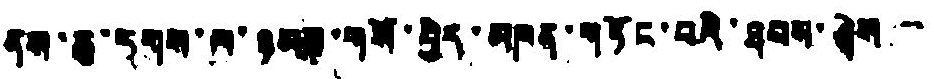ནས་ཆུ་ཏགས་ལ་ཉམས་གསོ་བྱེད་མཁན་གཏོང་བའི་ཐབས་ཤེས་་་
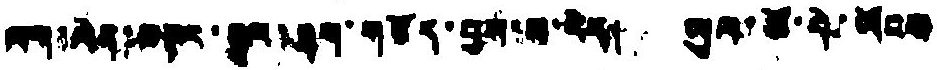ལག་ལེན་བསྟར་སྒྲུལ་ཐག་གཅོད་བྱས་པ་རེད། ཡུལ་ཚོ་གི་ཡོངས་
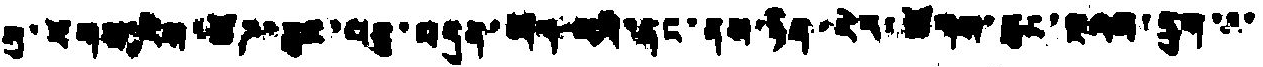སུ་རོགས་རེས་ཚོཌ་ཆུང་བཅུ་བདུན་ཡོད་པའི་ནང་ནས་རྙིན་རེར་ཚོགས་ཆུང་ལྔགས་དྲུག་་་
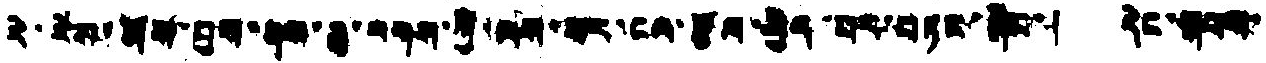རེ་རེས་མོས་བྱས་ནས་ཆུ་རགས་ཀྱི་ལས་སར་ངལ་རྩོལ་བྱིན་པར་བཏང་ཞིང་། དེང་སྐབས་
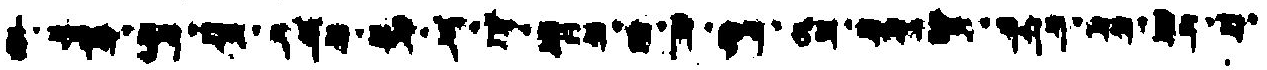ཆུ་རགས་རྒྱལ་པར་དགོས་པའི་རྡོ་བ་བླངས་སྔ་ཁེ་ལྷག་ཙམ་བལ་ཆེར་གཤག་ལས་ཟིན་པ་
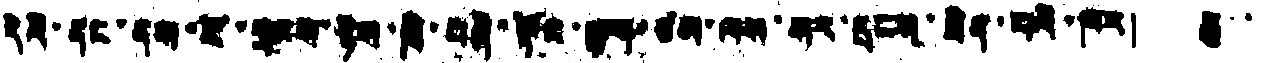དེའི་ནང་ནས་ངོ་གྲངས་ཉིས་ཁྲི་བཞི་སྟོང་ལྷག་ཙམ་ལས་ཧར་དང་ཟིན་པའི་ཁར། ཆུ་་
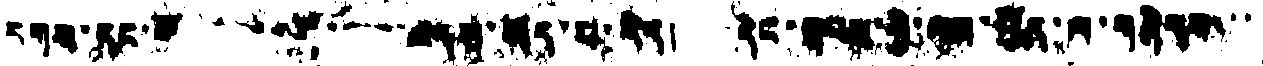རགས་དང་            ཡོད་པ་རེད། དེང་སྐབས་ཀྱི་ལས་ཐོན་ལ་གཞེགས་་
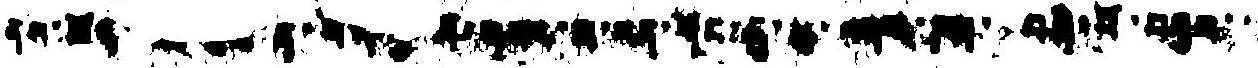ནས་                  ན་གོང་དུ་    ་ཁག་བཞི་པོ་བརྒྱབ་་
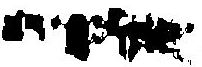ཚར་རྒྱུ་   ་
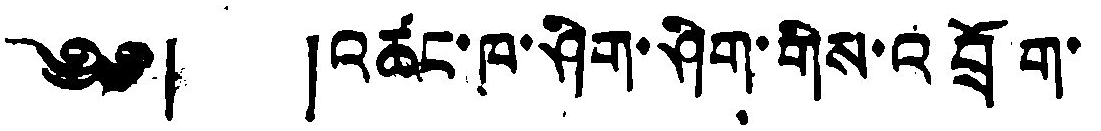༄༅། །འཚང་ཁ་ཤིག་ཤིག་གིས་འབྲོག་
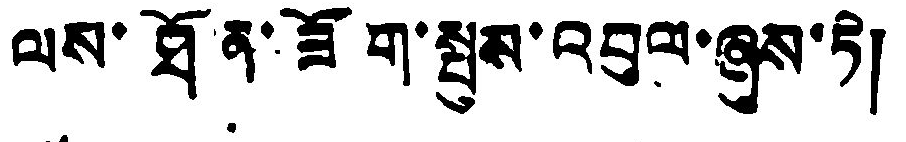ལས་ཐོན་ཟོག་སྤུས་འབུལ་ཞུས་ཏེ།
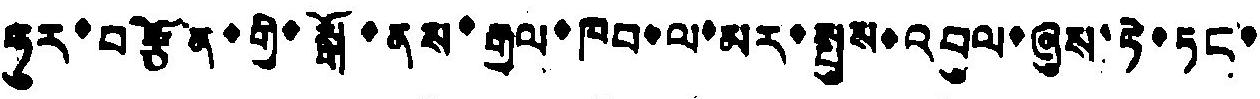ཧུར་བརྩོན་གྱི་སྒོ་ནས་རྒྱལ་ཁབ་ལ་མར་སྤུས་འབུལ་ཞུས་ཏེ་ཏང་
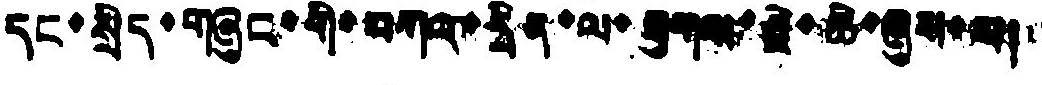དང་སྲིད་གཞུང་གི་བཀའ་དྲིན་ལ་ཐུགས་རྗེ་ཆེ་ཞུགས་ལ།
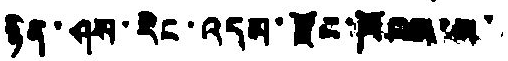ཉིས་ཤས་རིང་འདམ་རྫོང་ཁོངས་ས་
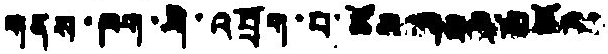གནས་ཁག་གི་འབྲོག་པ་ཚོས་གཟའ་བཆོར་
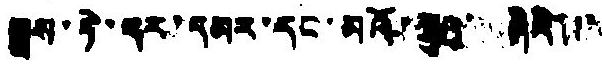སྒྲས་ཏེ་དར་དམར་དང་མའོ་ཀྲུའུ་ ཞིའི་་་
